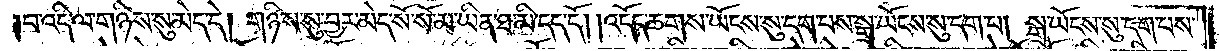པ་འདི་ལ་གཉིས་སུ་མེད་དེ། གཉིས་སུ་བྱར་མེད་སོ་སོ་མ་ཡིན་ཐ་མི་དད་དོ། །འདོད་ཆགས་ཡོངས་སུ་དག་པས་སྒྲ་ཡོངས་སུ་དག་པ། སྒྲ་ཡོངས་སུ་དག་པས་
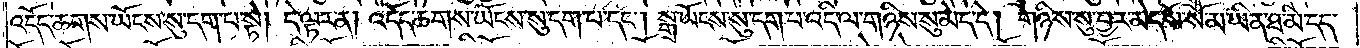འདོད་ཆགས་ཡོངས་སུ་དག་པ་སྟེ། དེ་ལྟར་ན། འདོད་ཆགས་ཡོངས་སུ་དག་པ་དང༌། སྒྲ་ཡོངས་སུ་དག་པ་འདི་ལ་གཉིས་སུ་མེད་དེ། གཉིས་སུ་བྱར་མེད་སོ་སོ་མ་ཡིན་ཐ་མི་དད་
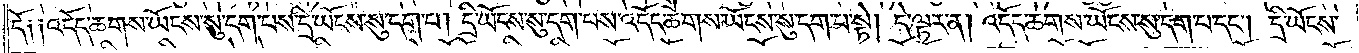དོ༑ ༑འདོད་ཆགས་ཡོངས་སུ་དག་པས་དྲི་ཡོངས་སུ་དག་པ། དྲི་ཡོངས་སུ་དག་པས་འདོད་ཆགས་ཡོངས་སུ་དག་པ་སྟེ། དེ་ལྟར་ན། འདོད་ཆགས་ཡོངས་སུ་དག་པ་དང༌། དྲི་ཡོངས་
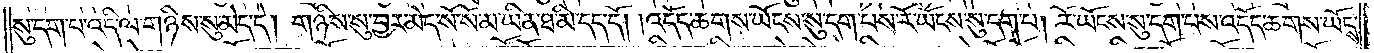སུ་དག་པ་འདི་ལ་གཉིས་སུ་མེད་དེ། གཉིས་སུ་བྱར་མེད་སོ་སོ་མ་ཡིན་ཐ་མི་དད་དོ། །འདོད་ཆགས་ཡོངས་སུ་དག་པས་རོ་ཡོངས་སུ་དག་པ། རོ་ཡོངས་སུ་དག་པས་འདོད་ཆགས་ཡོངས་
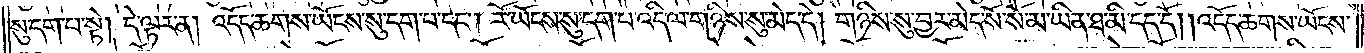སུ་དག་པ་སྟེ། དེ་ལྟར་ན། འདོད་ཆགས་ཡོངས་སུ་དག་པ་དང༌། རོ་ཡོངས་སུ་དག་པ་འདི་ལ་གཉིས་སུ་མེད་དེ། གཉིས་སུ་བྱར་མེད་སོ་སོ་མ་ཡིན་ཐ་མི་དད་དོ། །འདོད་ཆགས་ཡོངས་
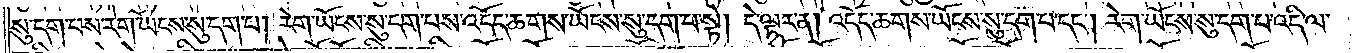སུ་དག་པས་རེག་ཡོངས་སུ་དག་པ། རེག་ཡོངས་སུ་དག་པས་འདོད་ཆགས་ཡོངས་སུ་དག་པ་སྟེ། དེ་ལྟར་ན། འདོད་ཆགས་ཡོངས་སུ་དག་པ་དང༌། རེག་ཡོངས་སུ་དག་པ་འདི་ལ་
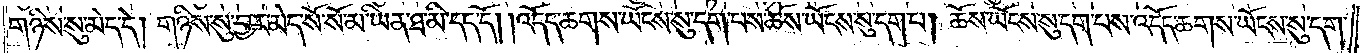གཉིས་སུ་མེད་དེ། གཉིས་སུ་བྱར་མེད་སོ་སོ་མ་ཡིན་ཐ་མི་དད་དོ། །འདོད་ཆགས་ཡོངས་སུ་དག་པས་ཆོས་ཡོངས་སུ་དག་པ། ཆོས་ཡོངས་སུ་དག་པས་འདོད་ཆགས་ཡོངས་སུ་དག་
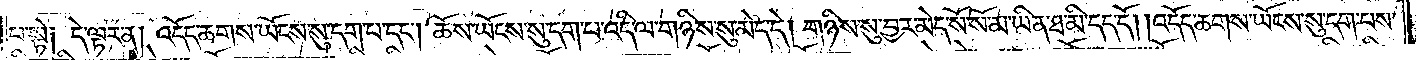པ་སྟེ༑ དེ་ལྟར་ན། འདོད་ཆགས་ཡོངས་སུ་དག་པ་དང༌། ཆོས་ཡོངས་སུ་དག་པ་འདི་ལ་གཉིས་སུ་མེད་དེ། གཉིས་སུ་བྱར་མེད་སོ་སོ་མ་ཡིན་ཐ་མི་དད་དོ། །འདོད་ཆགས་ཡོངས་སུ་དག་པས་
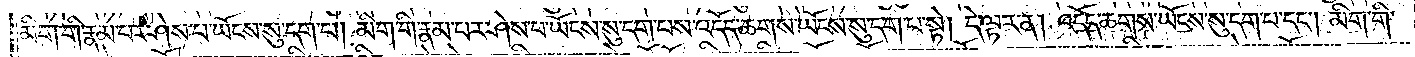མིག་གི་རྣམ་པར་ཤེས་པ་ཡོངས་སུ་དག་པ། མིག་གི་རྣམ་པར་ཤེས་པ་ཡོངས་སུ་དག་པས་འདོད་ཆགས་ཡོངས་སུ་དག་པ་སྟེ། དེ་ལྟར་ན། འདོད་ཆགས་ཡོངས་སུ་དག་པ་དང༌། མིག་གི་
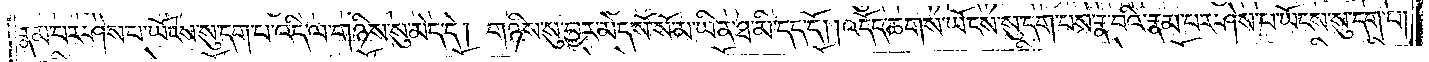རྣམ་པར་ཤེས་པ་ཡོངས་སུ་དག་པ་འདི་ལ་གཉིས་སུ་མེད་དེ། གཉིས་སུ་བྱར་མེད་སོ་སོ་མ་ཡིན་ཐ་མི་དད་དོ། །འདོད་ཆགས་ཡོངས་སུ་དག་པས་རྣ་བའི་རྣམ་པར་ཤེས་པ་ཡོངས་སུ་དག་པ།
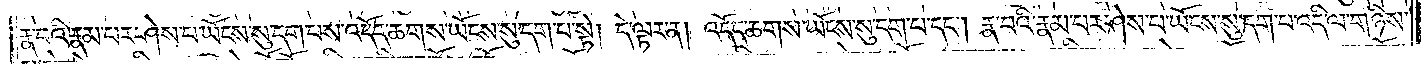རྣ་བའི་རྣམ་པར་ཤེས་པ་ཡོངས་སུ་དག་པས་འདོད་ཆགས་ཡོངས་སུ་དག་པ་སྟེ། དེ་ལྟར་ན། འདོད་ཆགས་ཡོངས་སུ་དག་པ་དང༌། རྣ་བའི་རྣམ་པར་ཤེས་པ་ཡོངས་སུ་དག་པ་འདི་ལ་གཉིས་
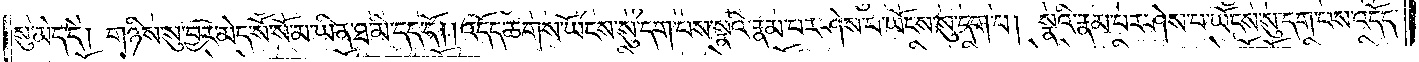སུ་མེད་དེ། གཉིས་སུ་བྱར་མེད་སོ་སོ་མ་ཡིན་ཐ་མི་དད་དོ། །འདོད་ཆགས་ཡོངས་སུ་དག་པས་སྣའི་རྣམ་པར་ཤེས་པ་ཡོངས་སུ་དག་པ། སྣའི་རྣམ་པར་ཤེས་པ་ཡོངས་སུ་དག་པས་འདོད་
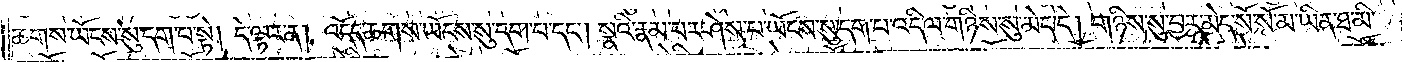ཆགས་ཡོངས་སུ་དག་པ་སྟེ། དེ་ལྟར་ན། འདོད་ཆགས་ཡོངས་སུ་དག་པ་དང༌། སྣའི་རྣམ་པར་ཤེས་པ་ཡོངས་སུ་དག་པ་འདི་ལ་གཉིས་སུ་མེད་དེ། གཉིས་སུ་བྱར་མེད་སོ་སོ་མ་ཡིན་ཐ་མི་
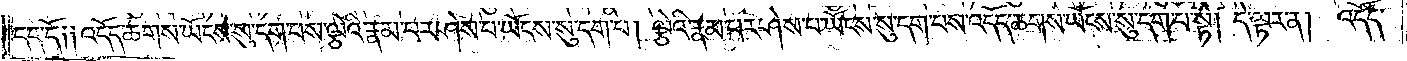དད་དོ། །འདོད་ཆགས་ཡོངས་སུ་དག་པས་ལྕེའི་རྣམ་པར་ཤེས་པ་ཡོངས་སུ་དག་པ། ལྕེའི་རྣམ་པར་ཤེས་པ་ཡོངས་སུ་དག་པས་འདོད་ཆགས་ཡོངས་སུ་དག་པ་སྟེ། དེ་ལྟར་ན། འདོད་
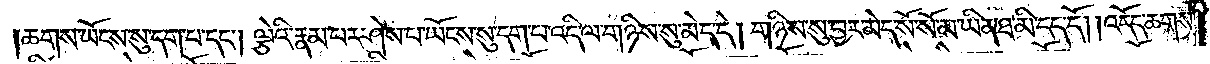ཆགས་ཡོངས་སུ་དག་པ་དང༌། ལྕེའི་རྣམ་པར་ཤེས་པ་ཡོངས་སུ་དག་པ་འདི་ལ་གཉིས་སུ་མེད་དེ། གཉིས་སུ་བྱར་མེད་སོ་སོ་མ་ཡིན་ཐ་མི་དད་དོ། །འདོད་ཆགས་
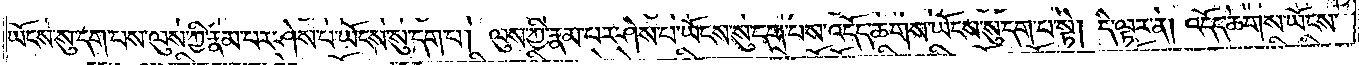ཡོངས་སུ་དག་པས་ལུས་ཀྱི་རྣམ་པར་ཤེས་པ་ཡོངས་སུ་དག་པ། ལུས་ཀྱི་རྣམ་པར་ཤེས་པ་ཡོངས་སུ་དག་པས་འདོད་ཆགས་ཡོངས་སུ་དག་པ་སྟེ། དེ་ལྟར་ན། འདོད་ཆགས་ཡོངས་
